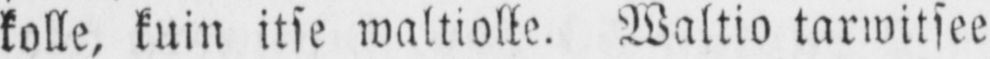kolle, kuin itse waltiolle. Waltio tarwitsee
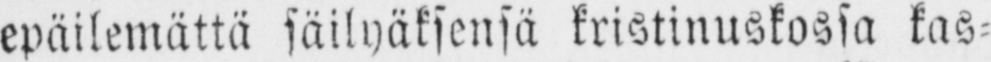epäilemättä säilyäksensä kristinuskossa kas-
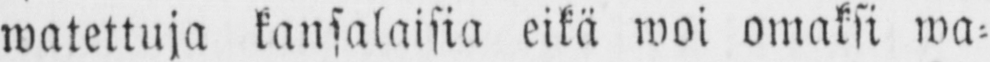watettuja kansalaisia eikä woi omaksi wa-
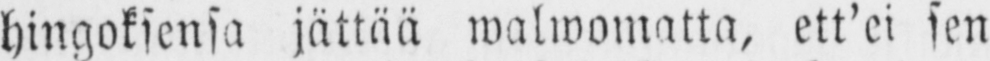hingoksensa jättää walwomatta, ett'ei sen
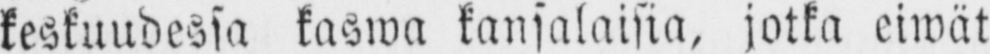keskuudessa kaswa kansalaisia, jotka eiwät
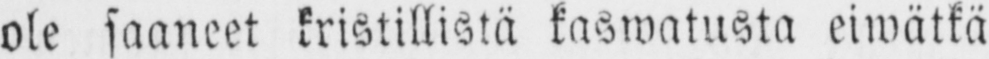ole saaneet kristillistä kaswatusta eiwätkä
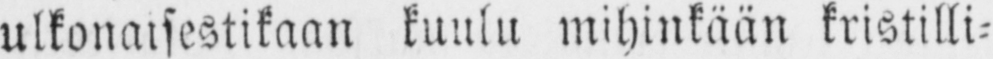ulkonaisestikaan kuulu mihinkään kristilli-
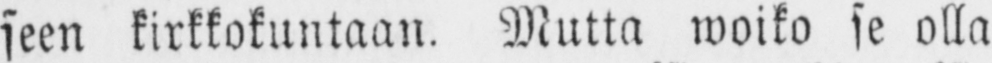seen kirkkokuntaan. Mutta woiko se olla
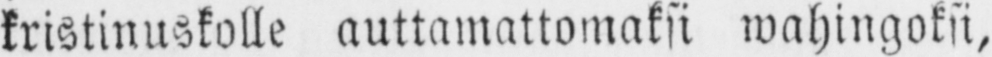kristinuskolle auttamattomaksi wahingoksi,
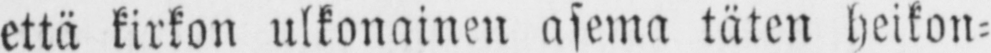että kirkon ulkonainen asema täten heikon-
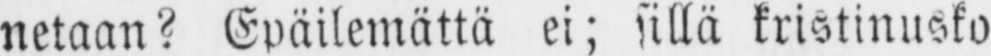netaan? Epäilemättä ei; sillä kristinusko
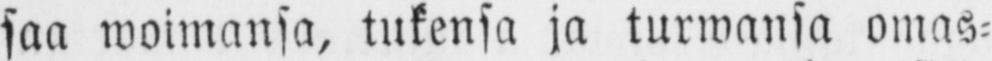saa woimansa, tukensa ja turwansa omas-
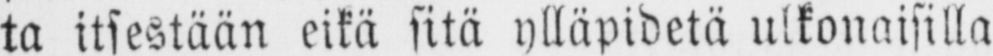ta itsestään eikä sitä ylläpidetä ulkonaisilla
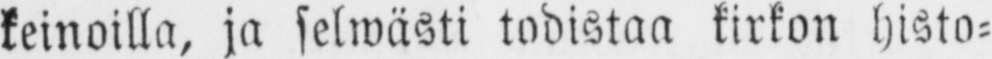keinoilla, ja selwästi todistaa kirkon histo-
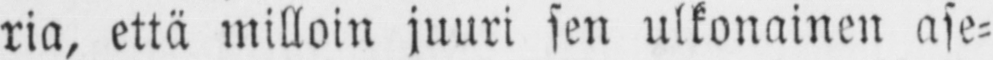ria, että milloin juuri sen ulkonainen ase-
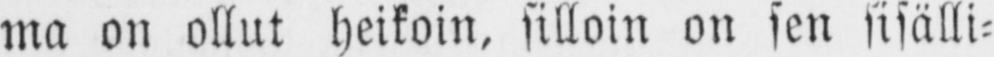ma on ollut heikoin, silloin on sen sisälli-
